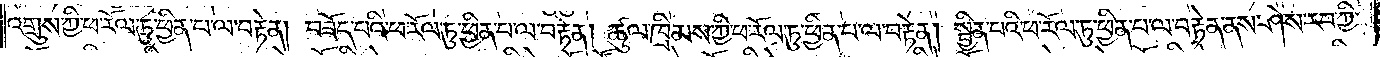འགྲུས་ཀྱི་ཕ་རོལ་ཏུ་ཕྱིན་པ་ལ་བརྟེན། བཟོད་པའི་ཕ་རོལ་ཏུ་ཕྱིན་པ་ལ་བརྟེན། ཚུལ་ཁྲིམས་ཀྱི་ཕ་རོལ་ཏུ་ཕྱིན་པ་ལ་བརྟེན། སྦྱིན་པའི་ཕ་རོལ་ཏུ་ཕྱིན་པ་ལ་བརྟེན་ནས་ཤེས་རབ་ཀྱི་
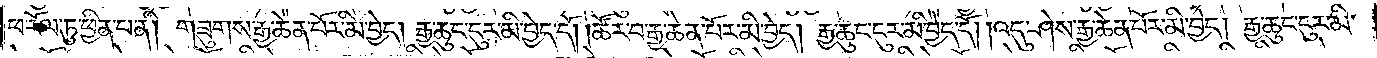ཕ་རོལ་ཏུ་ཕྱིན་པ་ནི། གཟུགས་རྒྱ་ཆེན་པོར་མི་བྱེད། རྒྱ་ཆུང་ངུར་མི་བྱེད་དོ། །ཚོར་བ་རྒྱ་ཆེན་པོར་མི་བྱེད། རྒྱ་ཆུང་ངུར་མི་བྱེད་དོ། །འདུ་ཤེས་རྒྱ་ཆེན་པོར་མི་བྱེད། རྒྱ་ཆུང་ངུར་མི་
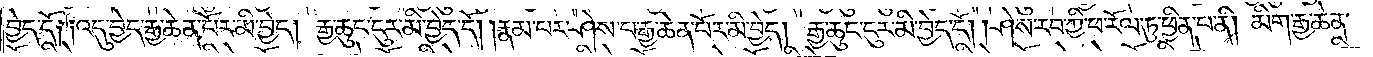བྱེད་དོ༑ ༑འདུ་བྱེད་རྒྱ་ཆེན་པོར་མི་བྱེད། རྒྱ་ཆུང་ངུར་མི་བྱེད་དོ། །རྣམ་པར་ཤེས་པ་རྒྱ་ཆེན་པོར་མི་བྱེད། རྒྱ་ཆུང་ངུར་མི་བྱེད་དོ། །ཤེས་རབ་ཀྱི་ཕ་རོལ་ཏུ་ཕྱིན་པ་ནི། མིག་རྒྱ་ཆེན་
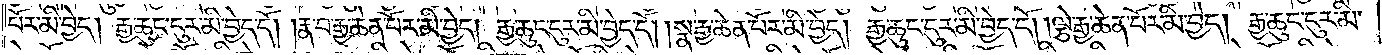པོར་མི་བྱེད། རྒྱ་ཆུང་ངུར་མི་བྱེད་དོ། །རྣ་བ་རྒྱ་ཆེན་པོར་མི་བྱེད། རྒྱ་ཆུང་ངུར་མི་བྱེད་དོ། །སྣ་རྒྱ་ཆེན་པོར་མི་བྱེད། རྒྱ་ཆུང་ངུར་མི་བྱེད་དོ། །ལྕེ་རྒྱ་ཆེན་པོར་མི་བྱེད། རྒྱ་ཆུང་ངུར་མི་
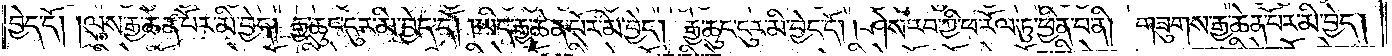བྱེད་དོ། །ལུས་རྒྱ་ཆེན་པོར་མི་བྱེད། རྒྱ་ཆུང་ངུར་མི་བྱེད་དོ། །ཡིད་རྒྱ་ཆེན་པོར་མི་བྱེད། རྒྱ་ཆུང་ངུར་མི་བྱེད་དོ། །ཤེས་རབ་ཀྱི་ཕ་རོལ་ཏུ་ཕྱིན་པ་ནི། གཟུགས་རྒྱ་ཆེན་པོར་མི་བྱེད།
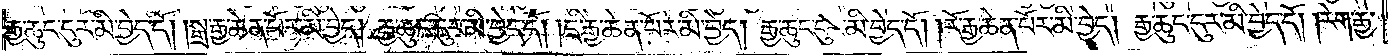རྒྱ་ཆུང་ངུར་མི་བྱེད་དོ། །སྒྲ་རྒྱ་ཆེན་པོར་མི་བྱེད། རྒྱ་ཆུང་ངུར་མི་བྱེད་དོ། །དྲི་རྒྱ་ཆེན་པོར་མི་བྱེད། རྒྱ་ཆུང་ངུར་མི་བྱེད་དོ། །རོ་རྒྱ་ཆེན་པོར་མི་བྱེད། རྒྱ་ཆུང་ངུར་མི་བྱེད་དོ། །རེག་རྒྱ་
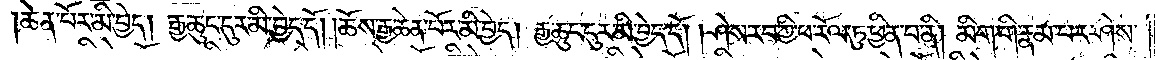ཆེན་པོར་མི་བྱེད། རྒྱ་ཆུང་ངུར་མི་བྱེད་དོ། །ཆོས་རྒྱ་ཆེན་པོར་མི་བྱེད། རྒྱ་ཆུང་ངུར་མི་བྱེད་དོ། །ཤེས་རབ་ཀྱི་ཕ་རོལ་ཏུ་ཕྱིན་པ་ནི། མིག་གི་རྣམ་པར་ཤེས་
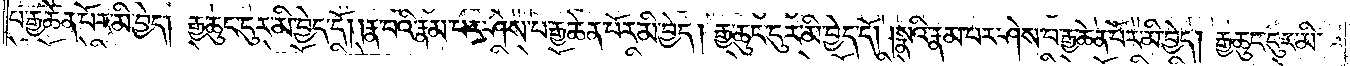པ་རྒྱ་ཆེན་པོར་མི་བྱེད། རྒྱ་ཆུང་ངུར་མི་བྱེད་དོ། །རྣ་བའི་རྣམ་པར་ཤེས་པ་རྒྱ་ཆེན་པོར་མི་བྱེད། རྒྱ་ཆུང་ངུར་མི་བྱེད་དོ། །སྣའི་རྣམ་པར་ཤེས་པ་རྒྱ་ཆེན་པོར་མི་བྱེད། རྒྱ་ཆུང་ངུར་མི་
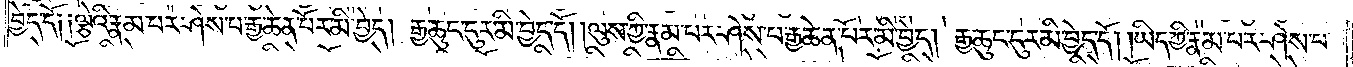བྱེད་དོ༑ ༑ལྕེའི་རྣམ་པར་ཤེས་པ་རྒྱ་ཆེན་པོར་མི་བྱེད། རྒྱ་ཆུང་ངུར་མི་བྱེད་དོ། །ལུས་ཀྱི་རྣམ་པར་ཤེས་པ་རྒྱ་ཆེན་པོར་མི་བྱེད། རྒྱ་ཆུང་ངུར་མི་བྱེད་དོ། །ཡིད་ཀྱི་རྣམ་པར་ཤེས་པ་
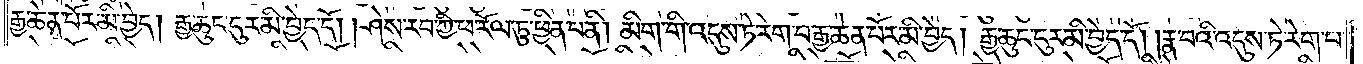རྒྱ་ཆེན་པོར་མི་བྱེད། རྒྱ་ཆུང་ངུར་མི་བྱེད་དོ། །ཤེས་རབ་ཀྱི་ཕ་རོལ་ཏུ་ཕྱིན་པ་ནི། མིག་གི་འདུས་ཏེ་རེག་པ་རྒྱ་ཆེན་པོར་མི་བྱེད། རྒྱ་ཆུང་ངུར་མི་བྱེད་དོ། །རྣ་བའི་འདུས་ཏེ་རེག་པ་
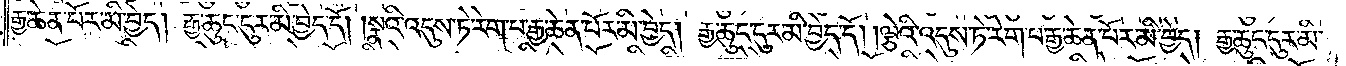རྒྱ་ཆེན་པོར་མི་བྱེད། རྒྱ་ཆུང་ངུར་མི་བྱེད་དོ། །སྣའི་འདུས་ཏེ་རེག་པ་རྒྱ་ཆེན་པོར་མི་བྱེད། རྒྱ་ཆུང་ངུར་མི་བྱེད་དོ། །ལྕེའི་འདུས་ཏེ་རེག་པ་རྒྱ་ཆེན་པོར་མི་བྱེད། རྒྱ་ཆུང་ངུར་མི་
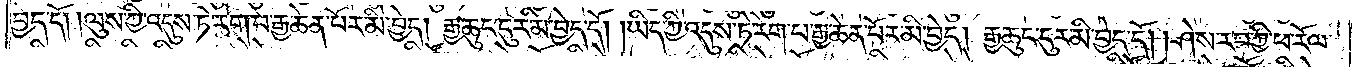བྱེད་དོ། །ལུས་ཀྱི་འདུས་ཏེ་རེག་པ་རྒྱ་ཆེན་པོར་མི་བྱེད། རྒྱ་ཆུང་ངུར་མི་བྱེད་དོ། །ཡིད་ཀྱི་འདུས་ཏེ་རེག་པ་རྒྱ་ཆེན་པོར་མི་བྱེད། རྒྱ་ཆུང་ངུར་མི་བྱེད་དོ། །ཤེས་རབ་ཀྱི་ཕ་རོལ་
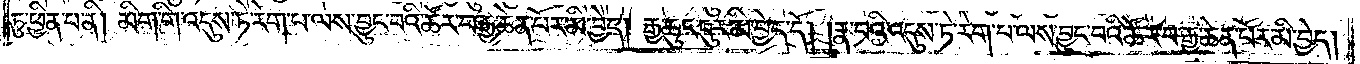ཏུ་ཕྱིན་པ་ནི། མིག་གི་འདུས་ཏེ་རེག་པ་ལས་བྱུང་བའི་ཚོར་བ་རྒྱ་ཆེན་པོར་མི་བྱེད། རྒྱ་ཆུང་ངུར་མི་བྱེད་དོ། །རྣ་བའི་འདུས་ཏེ་རེག་པ་ལས་བྱུང་བའི་ཚོར་བ་རྒྱ་ཆེན་པོར་མི་བྱེད།
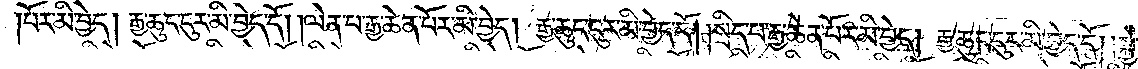པོར་མི་བྱེད། རྒྱ་ཆུང་ངུར་མི་བྱེད་དོ། །ལེན་པ་རྒྱ་ཆེན་པོར་མི་བྱེད། རྒྱ་ཆུང་ངུར་མི་བྱེད་དོ། །སྲིད་པ་རྒྱ་ཆེན་པོར་མི་བྱེད། རྒྱ་ཆུང་ངུར་མི་བྱེད་དོ། །སྐྱེ་
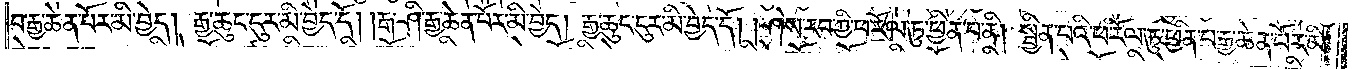བ་རྒྱ་ཆེན་པོར་མི་བྱེད། རྒྱ་ཆུང་ངུར་མི་བྱེད་དོ། །རྒ་ཤི་རྒྱ་ཆེན་པོར་མི་བྱེད། རྒྱ་ཆུང་ངུར་མི་བྱེད་དོ། །ཤེས་རབ་ཀྱི་ཕ་རོལ་ཏུ་ཕྱིན་པ་ནི། སྦྱིན་པའི་ཕ་རོལ་ཏུ་ཕྱིན་པ་རྒྱ་ཆེན་པོར་མི་
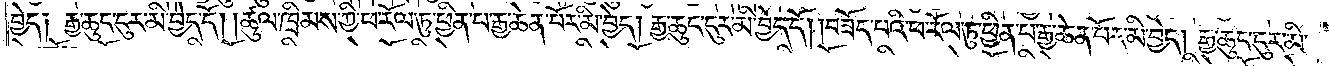བྱེད༑ རྒྱ་ཆུང་ངུར་མི་བྱེད་དོ། །ཚུལ་ཁྲིམས་ཀྱི་ཕ་རོལ་ཏུ་ཕྱིན་པ་རྒྱ་ཆེན་པོར་མི་བྱེད། རྒྱ་ཆུང་ངུར་མི་བྱེད་དོ། །བཟོད་པའི་ཕ་རོལ་ཏུ་ཕྱིན་པ་རྒྱ་ཆེན་པོར་མི་བྱེད། རྒྱ་ཆུང་ངུར་མི་
